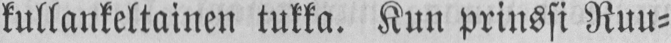kullankeltainen tukka. Kun prinssi Ruu-
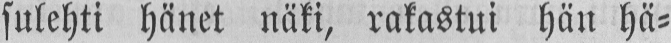sulehti hänet näki, rakastui hän hä-
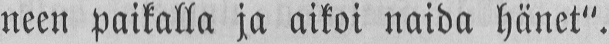neen paikalla ja aikoi naida hänet".
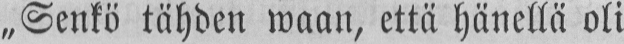„Senkö tähden waan, että hänellä oli
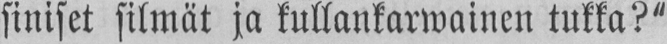siniset silmät ja kullankarwainen tukka?"
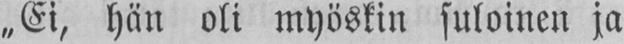„Ei, hän oli myöskin suloinen ja
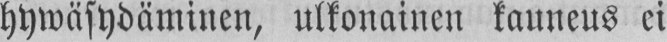hywäsydäminen, ulkonainen kauneus ei
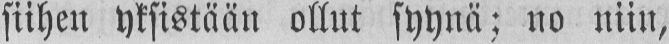siihen yksistään ollut syynä; no niin,
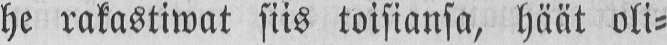he rakastiwat siis toisiansa, häät oli-
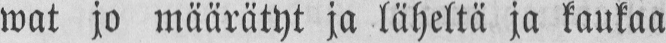wat jo määrätyt ja läheltä ja kaukaa
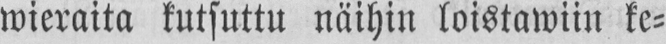wieraita kutsuttu näihin loistawiin ke-
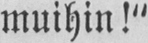muihin!"
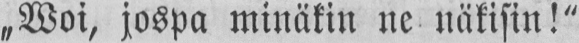„Woi, jospa minäkin ne näkisin!"
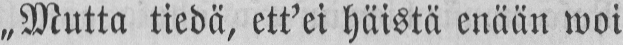„Mutta tiedä, ett'ei häistä enään woi
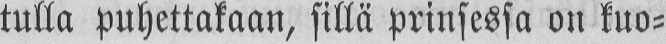tulla puhettakaan, sillä prinsessa on kuo-
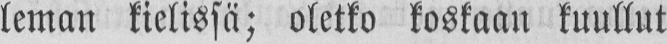leman kielissä; oletko koskaan kuullut
